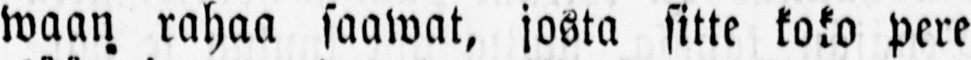waan rahaa saawat, josta sitte koko pere
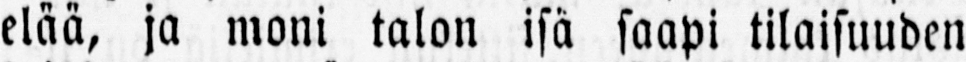elää, ja moni talon isä saapi tilaisuuden
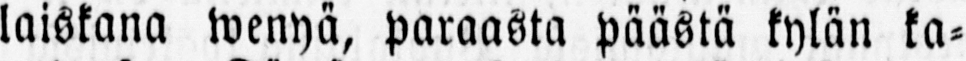laiskana wenyä, paraasta päästä kylän ka-
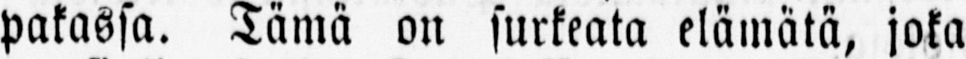pakassa. Tämä on surkeata elämätä, joka
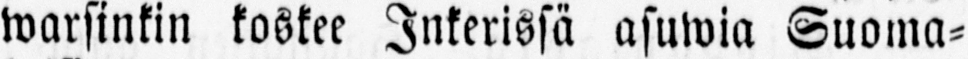warsinkin koskee Inkerissä asuwia Suoma-
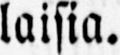laisia.
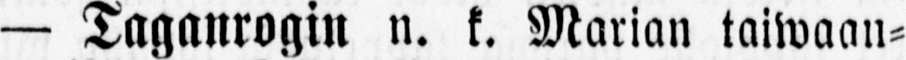— Taganrogin n. k. Marian taiwaan-
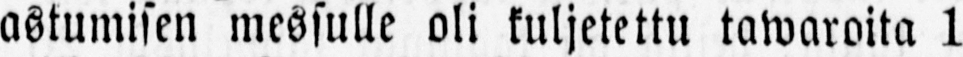astumisen messulle oli kuljetettu tawaroita 1
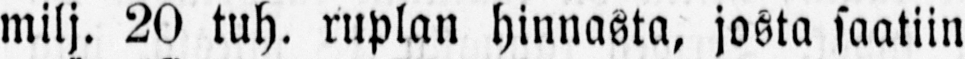milj. 20 tuh. ruplan hinnasta, josta saatiin
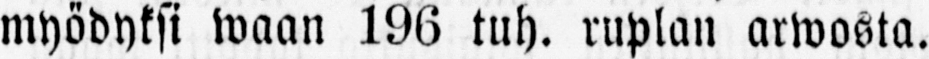myödyksi waan 196 tuh. ruplan arwosta.
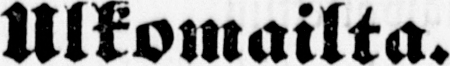Ulkomailta.
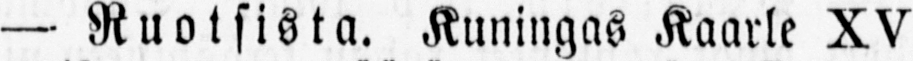— Ruotsista. Kuningas Kaarle XV
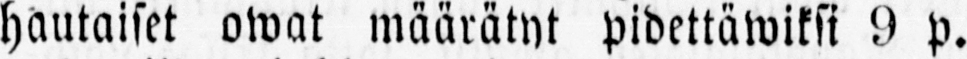hautaiset owat määrätyt pidettäwiksi 9 p.
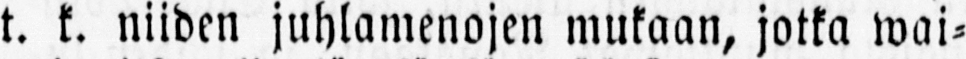t. k. niiden juhlamenojen mukaan, jotka wai-
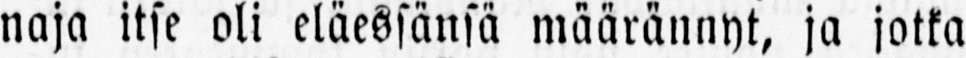naja itse oli eläessänsä määrännyt, ja jotka
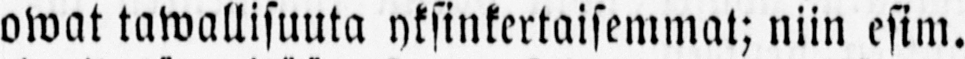owat tawallisuuta yksinkertaisemmat; niin esim.
